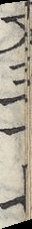文三十七
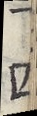十四
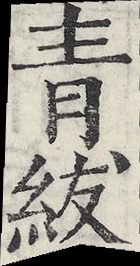青紱
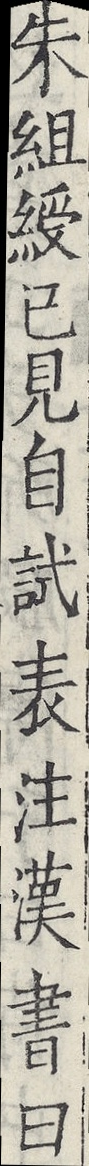朱組綬已見自試表注漢書曰
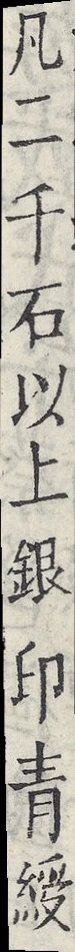凡二千石以上銀印青綬
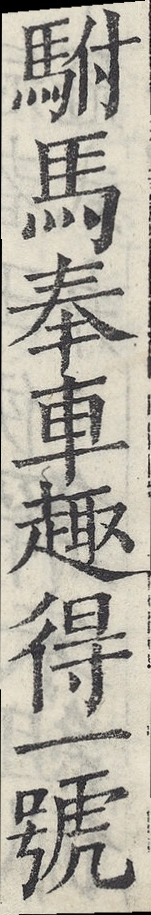駙馬奉車趣得一號
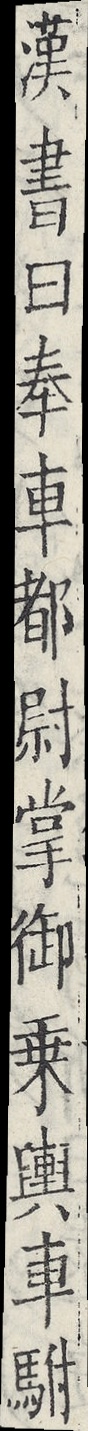漢書曰奉車都尉掌御乘輿車駙
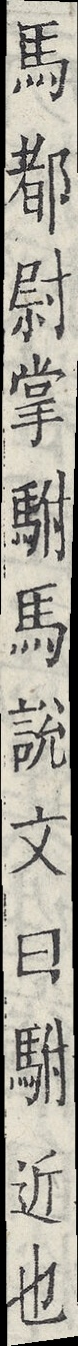馬都尉掌駙馬說文曰駙近也
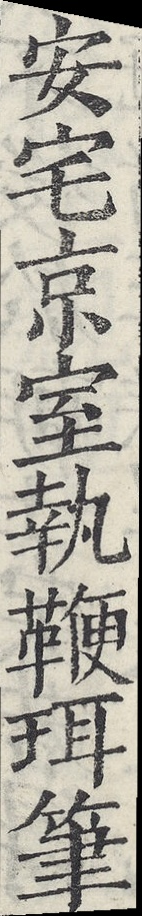安宅京室執鞭珥筆
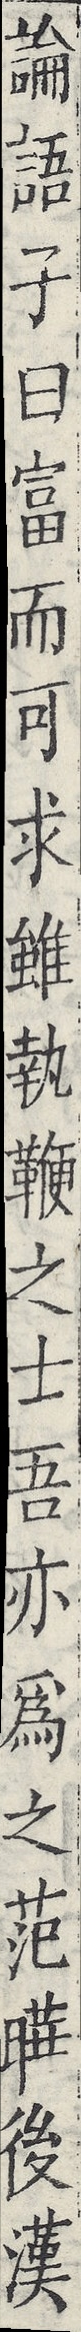論語子曰富而可求雖執鞭之士吾亦為之范曄後漢
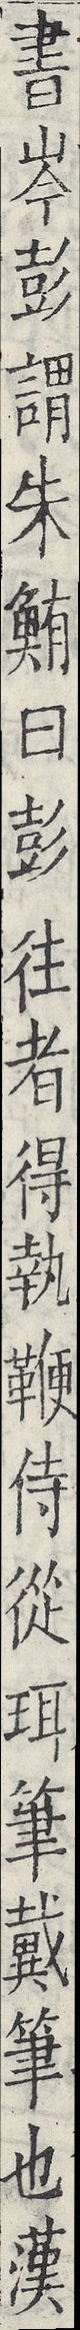書岑彭謂朱鮪曰彭往者得執鞭侍從珥筆戴筆也漢
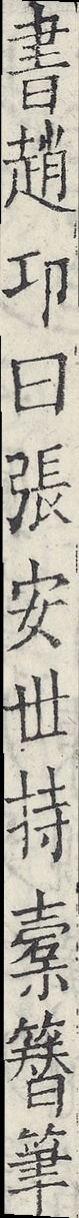書趙邛曰張安世持橐簪筆
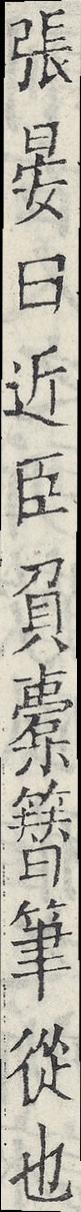張晏曰近臣負橐簪筆從也
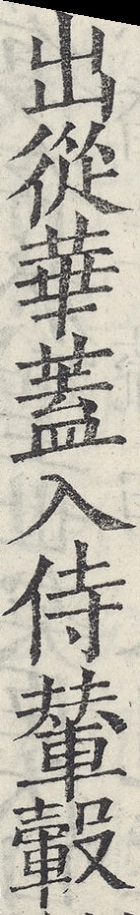出從華蓋入侍輦轂
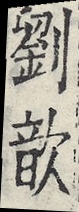劉歆
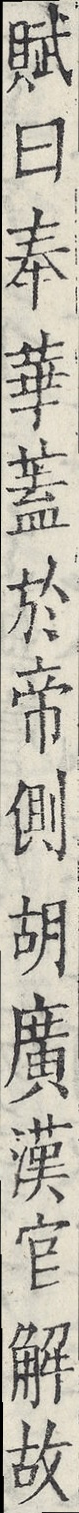賦曰奉華蓋於帝側胡廣漢官解故
